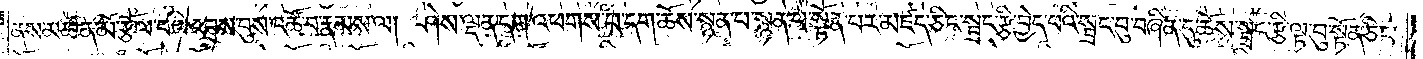ནས་མཚན་མོ་རྩོལ་བའི་འབྲས་བུས་འཚོ་བ་རྣམས་ལ། ཤེས་ལྡན་དག་འཕགས་པ་དག་ཆོས་སྙན་པ་སྙན་པ་སྟོན་པར་མཛད་ཅིང་སྦྲང་རྩི་བྱེད་པའི་སྦྲང་བུ་བཞིན་དུ་ཆོས་སྦྲང་རྩི་ལྟ་བུ་སྟོན་ཅིང་
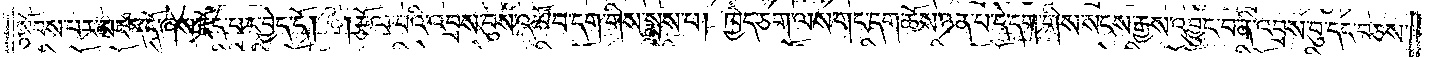སྟོབས་པར་མཛད་དོ་ཞེས་རྗོད་པར་བྱེད་དོ། །རྩོལ་བའི་འབྲས་བུ་འཚོ་བ་དག་གིས་སྨྲས་པ། ཁྱེད་ཅག་ལས་གང་དག་ཆོས་ཉན་པ་དེ་དག་གིས་སངས་རྒྱས་འབྱུང་བ་ནི་འབྲས་བུ་དང་བཅས་
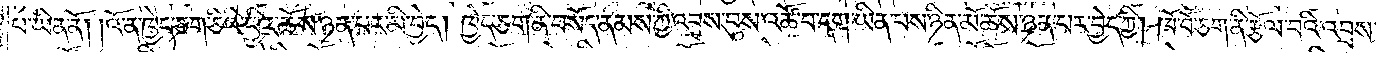པ་ཡིན་ནོ། །འོ་ན་ཁྱེད་ཅག་ཅིའི་ཕྱིར་ཆོས་ཉན་པར་མི་བྱེད། ཁྱེད་ཅག་ནི་བསོད་ནམས་ཀྱི་འབྲས་བུས་འཚོ་བ་དག་ཡིན་པས་ཉིན་མོ་ཆོས་ཉན་པར་བྱེད་ཀྱི། ཁོ་བོ་ཅག་ནི་རྩོལ་བའི་འབྲས་
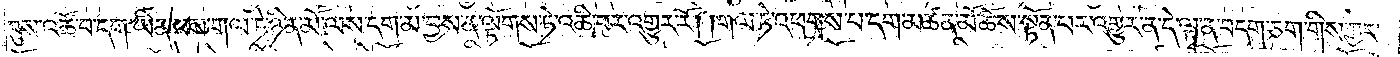བུས་འཚོ་བ་དག་ཡིན་པས་གལ་ཏེ་ཉིན་མོ་ལས་དག་མ་བྱས་ན་ལྟོགས་ཏེ་འཆི་བར་འགྱུར་རོ། །གལ་ཏེ་འཕགས་པ་དག་མཚན་མོ་ཆོས་སྟོན་པར་འགྱུར་ན་དེ་ལྟ་ན་བདག་ཅག་གིས་ཀྱང་
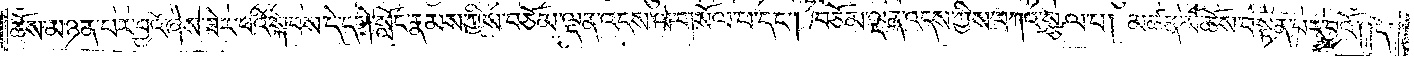ཆོས་མཉན་པར་བྱའོ་ཞེས་ཟེར་བའི་སྐབས་དེ་དགེ་སློང་རྣམས་ཀྱིས་བཅོམ་ལྡན་འདས་ལ་གསོལ་པ་དང༌། བཅོམ་ལྡན་འདས་ཀྱིས་བཀའ་སྩལ་པ། མཚན་མོ་ཆོས་བསྟན་པར་བྱའོ། །ད་
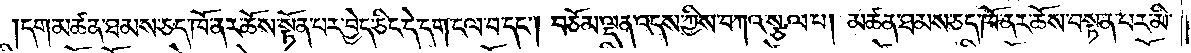དག་མཚན་ཐམས་ཅད་ཁོ་ནར་ཆོས་སྟོན་པར་བྱེད་ཅིང་དེ་དག་ངལ་བ་དང༌། བཅོམ་ལྡན་འདས་ཀྱིས་བཀའ་སྩལ་པ། མཚན་ཐམས་ཅད་ཁོ་ནར་ཆོས་བསྟན་པར་མི་
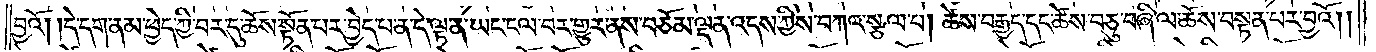བྱའོ། །དེ་དག་ནམ་ཕྱེད་ཀྱི་བར་དུ་ཆོས་སྟོན་པར་བྱེད་པ་ན་དེ་ལྟ་ན་ཡང་ངལ་བར་གྱུར་ནས་བཅོམ་ལྡན་འདས་ཀྱིས་བཀའ་སྩལ་པ། ཚེས་བརྒྱད་དང་ཚེས་བཅུ་བཞི་ལ་ཆོས་བསྟན་པར་བྱའོ། །
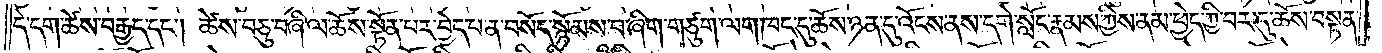དེ་དག་ཚེས་བརྒྱད་དང༌། ཚེས་བཅུ་བཞི་ལ་ཆོས་སྟོན་པར་བྱེད་པ་ན་བསོད་སྙོམས་པ་ཞིག་གཙུག་ལག་ཁང་དུ་ཆོས་ཉན་དུ་འོངས་ནས་དགེ་སློང་རྣམས་ཀྱིས་ནམ་ཕྱེད་ཀྱི་བར་དུ་ཆོས་བསྟན་
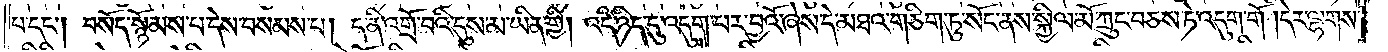པ་དང༌། བསོད་སྙོམས་པ་དེས་བསམས་པ། ད་ནི་འགྲོ་བའི་དུས་མ་ཡིན་གྱི། འདི་ཉིད་དུ་འདུག་པར་བྱའོ་ཞེས་དེ་མཐའ་གཅིག་ཏུ་སོང་ནས་སྐྱིལ་མོ་ཀྲུང་བཅས་ཏེ་འདུག་གོ །དེར་ལྷགས་
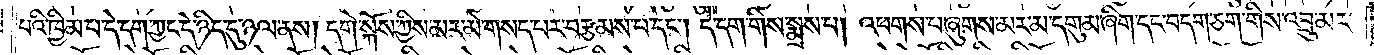པའི་ཁྱིམ་པ་དེ་དག་ཀྱང་དེ་ཉིད་དུ་ཉལ་ནས། དགེ་སྐོས་ཀྱིས་མར་མེ་གསད་པར་བརྩམས་པ་དང༌། དེ་དག་གིས་སྨྲས་པ། འཕགས་པ་ཞུགས་མར་མ་དགུམ་ཞིག་དང་བདག་ཅག་གིས་འབྲུ་མར་
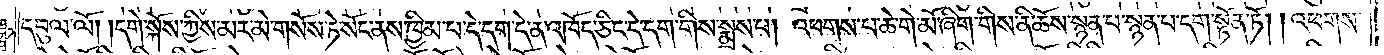དབུལ་ལོ། །དགེ་སྐོས་ཀྱིས་མར་མེ་གསོས་ཏེ་སོང་ནས་ཁྱིམ་པ་དེ་དག་དེ་ན་འཁོད་ཅིང་དེ་དག་གིས་སྨྲས་པ། འཕགས་པ་ཆེ་གེ་མོ་ཞིག་གིས་ནི་ཆོས་སྙན་པ་སྙན་པ་དག་སྟོན་ཏོ། །འཕགས་
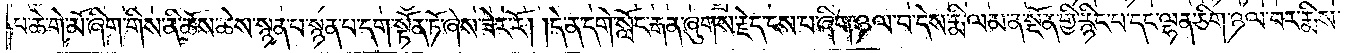པ་ཆེ་གེ་མོ་ཞིག་གིས་ནི་ཆོས་ཆེས་སྙན་པ་སྙན་པ་དག་སྟོན་ཏོ་ཞེས་ཟེར་རོ། །དེ་ན་དགེ་སློང་རྒན་ཞུགས་རྗེད་ངས་པ་ཞིག་ཉལ་བ་དེས་རྨི་ལམ་ན་སྔོན་གྱི་རྙིང་པ་དང་ལྷན་ཅིག་ཉལ་བར་རྨིས་
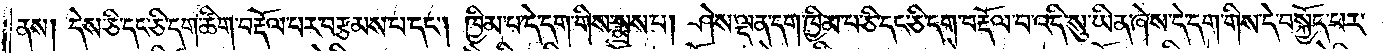ནས། དེས་ཅི་དང་ཅི་དག་ཚིག་བརྡོལ་པར་བརྩམས་པ་དང༌། ཁྱིམ་པ་དེ་དག་གིས་སྨྲས་པ། ཤེས་ལྡན་དག་ཁྱིམ་པ་ཅི་དང་ཅི་དག་བརྡོལ་བ་འདི་སུ་ཡིན་ཞེས་དེ་དག་གིས་དེ་བསྐྱོད་པར་
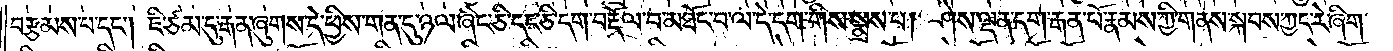བརྩམས་པ་དང༌། ཇི་ཙམ་དུ་རྒན་ཞུགས་དེ་ཕྱིས་གན་དུ་ཉལ་ཞིང་ཅི་དང་ཅི་དག་བརྡོལ་བ་མཐོང་བ་ལ་དེ་དག་གིས་སྨྲས་པ། ཤེས་ལྡན་དག་རྒན་པོ་རྣམས་ཀྱི་གནས་སྐབས་ཀྱང་རེ་ཞིག་
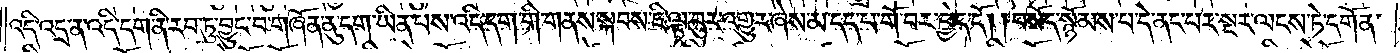འདི་འདྲ་ན་འདི་དག་ནི་རབ་ཏུ་བྱུང་བ་གཞོན་ནུ་དག་ཡིན་པས་འདི་དག་གི་གནས་སྐབས་ཇི་ལྟ་བུར་འགྱུར་ཞེས་མ་དད་པ་གོ་བར་བྱེད་དོ། །བསོད་སྙོམས་པ་དེ་ནང་པར་སྔར་ལངས་ཏེ་དགོན་
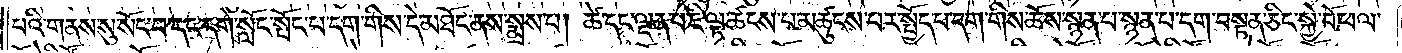པའི་གནས་སུ་སོང་བ་དང་དགེ་སློང་སྤོང་པ་དག་གིས་དེ་མཐོང་ནས་སྨྲས་པ། ཚེ་དང་ལྡན་པ་ཇི་ལྟ་ཚངས་པ་མཚུངས་པར་སྤྱོད་པ་དག་གིས་ཆོས་སྙན་པ་སྙན་པ་དག་བསྟན་ཅིང་སྐྱེ་བོ་ཕལ་
